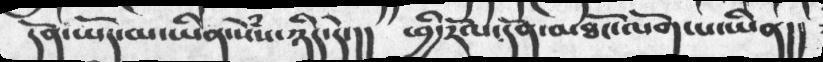དོན་ཡོད་མ་ཡིན་སེྃས་ཉིད་དེ་།།    ཕྱི་རོལ་དོན་མཐོང་ལོག་པ་ཡིན།།
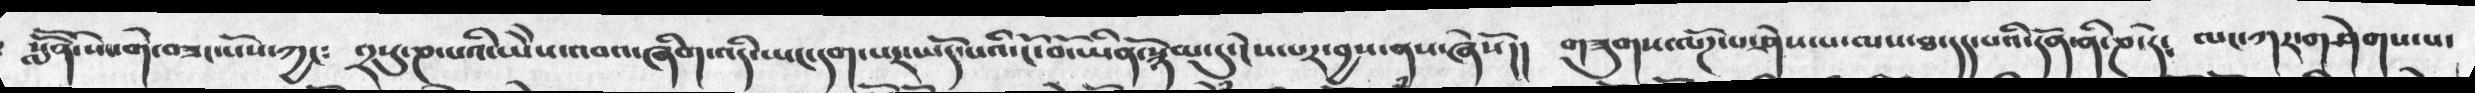སློོན་སེང་གེ་བཟང་པོས་ཀྱང༴   ༢་སུ་ཎ་པའི་ཡེེས་འབའ་ཞིག་འདི་ཡང་དག་པར་ཡོད་པའི་ངོ་བོ་ཡིན་སྙོམ་དུ་ངེས་པར་བྱས་ནས་ཞེསོ།།   གཟུགས་ལོཌ་པ་ཤེས་པ་ལས་ཐ་དད་པའི་དོན་ནི་ཎ་དེ༴   ལང་ཀར་གཤེགས་པ་
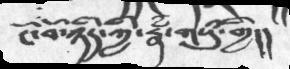ངོ་བོ་ཉིད་ཀྱི་རྣཾ་གསུཾ་གྱི།།
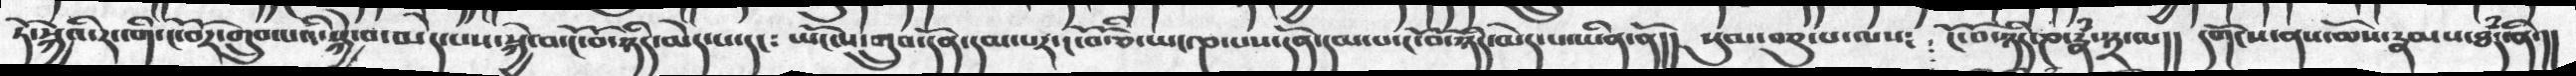ཏེ་སྐྱེའི་རང་གི་ངོ་བོར་གྲུབ་པའི་སྐྱེ་བ་མེད་པས་སྐྱེ་བ་ངོ་བོ་ཉིད་མེད་པ་དང༴   ཡོངས་གྲུབ་དོན་དམ་པར་ངོ་བོ་ཅི་ཡང་ཎ་པས་དོན་དམ་པ་ངོ་བོ་ཉིད་མེད་པ་ཡིན་ནོ།།  སུམ་བཅུ་པ་ལས༴   ངོ་བོ་ཉིད་ཎ་རྣཾ་༣་ལ།།  དགོངས་ནས་ཆོས་རྣམས་ཐཾད་ནི་།།
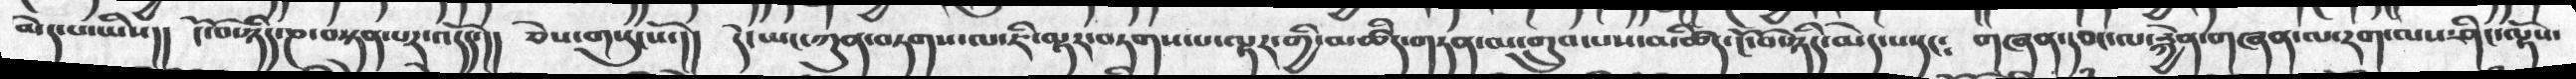མེད་པ་ཡིས།།   ངོ་བོ་ཉིད་ཎ་བསྟན་པར་འདོད་།།  ཅེས་གསུངསོ་།།  དེ་ཡང་ཀུན་བཏགས་ལ་ཇི་ལྟར་བཏགས་པ་ལྟར་གྱི་མཚིད་གཏན་མ་གྲུབ་པས་མཚིད་ངོ་བོ་ཉིད་མེད་པ་དང༴   གཞན་དབང་་རྐྱེན་གཞན་ལ་རག་ལས་ཤིང་ལྟོས་
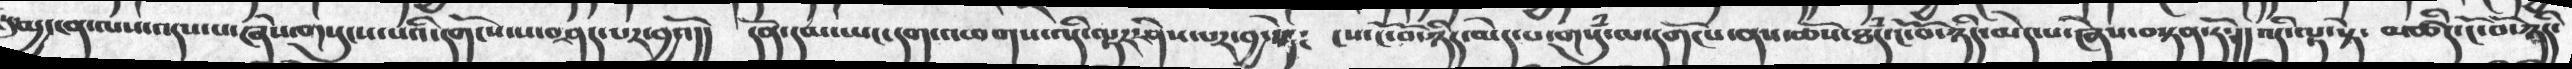མྱ་ངན་ལས་འདས་པ་ཞེས་གསུངས་པའི་དགོངས་པ་བཤད་པར་བྱའོ།།   དོན་དམ་ཡང་དག་འཕགས་འདི་ལྟར་ཤེས་པར་བྱ་སྟེ༴   ངས་ངོ་བོ་ཉིད་མེད་པ་གསུཾ་ལ་དགོངས་ནས་ཆོས་ཐཾད་ངོ་བོ་ཉིད་མེད་པ་ཞེས་བསྟན་ཏོ་།།   མཚིད་ངོ་བོ་ཉིད་
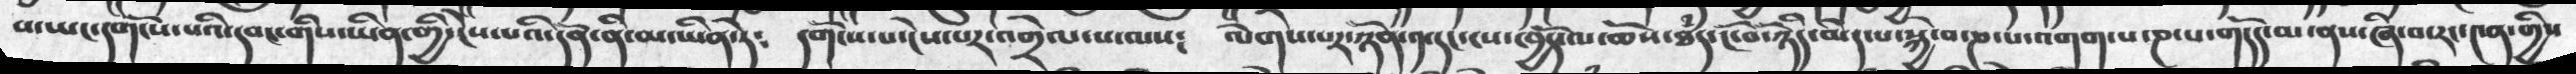པ་ཡང་དགོངས་པའི་དབང་གིས་ཡིན་གྱི་ངེས་པའི་དོན་ནི་མ་ཡིན་ཏེ༴   དགོངས་པ་ངེད་པར་འགྲེལ་པ་ལས༴   ལེགས་པར་ཉོན་༡་དང་ངས་ཁྱོད་ལ་ཆོས་ཐཾད་ངོ་བོ་ཉིད་མེད་པ་སྐྱེ་བ་ཎ་པ་འགག་པ་ཎ་པ་གདོད་མ་ནས་ཞི་བ་རང་༤ན་གྱིས
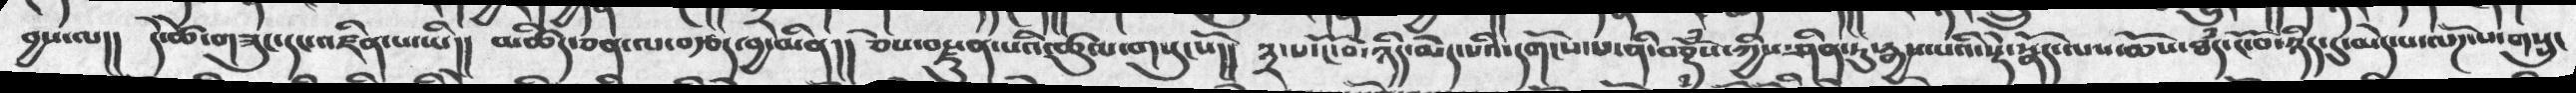བྱས་ལ།།  དེ་ཚོ་གཟུང་དང་འཛིན་པ་ཡི།།  མཚིད་ཅན་ལ་བརྩད་བྱེ་མིན།།  ཅེས་བསྫུན་པའི་ཚུལ་གསུངསོ།།   ༣་པ་ངོ་བོ་ཉིད་མེད་པའི་དགོངས་པ་ནི་བཅྡོཾས་ཀྱིས་ཤིན་ཏུ་རྒྱས་པའི་སྡེ་སྣོད་ལས་ཆོས་ཐཾད་ངོ་བོ་ཉིད་དུ་མེད་པ་ལོཌ་པ་གསུངས
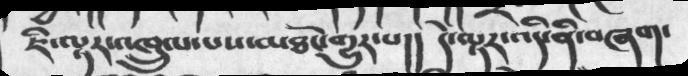ཇི་ལྟར་འཁྲུལ་པས་མཐོང་གྱུར་པ།།   དེ་ལྟར་འདི་ནི་བཞག་
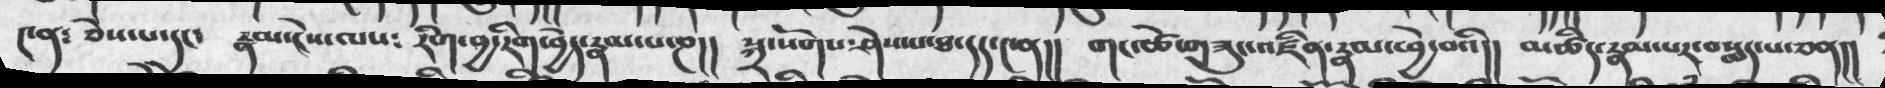༤ན༴ ཅེས་པ་དང་  རྣམ་ངེས་ལས༴ རིག་བྱ་རིག་བྱེད་རྣམ་པ་ཎ།།  སྐྲ་སོགས་ཤེས་པ་ཐ་དད་༤ན།།  གང་ཚེ་གཟུང་འཛིན་རྣམ་ཕྱེ་བའི།།  མཚིད་རྣམ་པར་བསླད་པ་ཅན།།
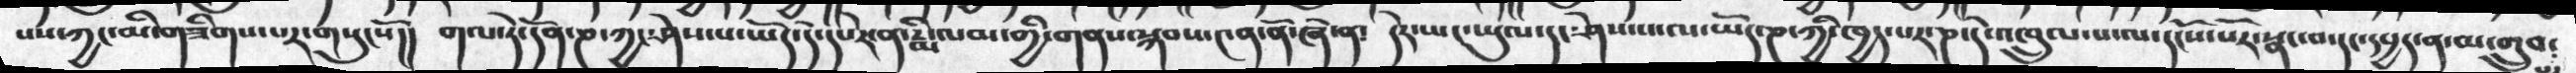པས་ཀྱང་མི་གཟིགས་པར་གསུངསོ།།  གལ་ཏེ་དོན་ཎ་ཀྱང་ཤེས་པ་ཡོད་དེ་དཔེར་ན་རྨི་ལམ་གྱི་གནས་སྐབས་༤ན་ནོ་ཞེ་ན༴  དེར་ཡང་ཡུལ་དང་ཤེས་པ་ལ་ཡོད་ཎ་ཀྱི་ཁྱད་པར་ཎ་དེ་འཁྲུལ་པ་ལ་དངོས་པོར་སྣང་བ་དང་དཔྱད་ན་མ་གྲུབ༴
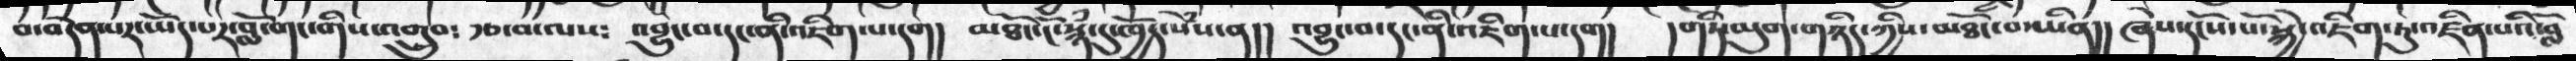བ་བདེན་པར་ཡོད་པར་བློ་གང་གིས་འགྲུབ༴ རྩ་བ་ལས༴ འབྱུང་བ་དང་ནི་འཇིག་པ་དག། མཐོང་ངོ་སྙཾ་དུ་ཁྱོད་སེཾས་ན།། འབྱུང་བ་དང་ན་ིའཇིག་པ་དག། །གཏི་མུག་གཉིད་ཀྱིས་མཐོང་བ་ཡིན།། ཞེས་དངོས་པོ་སྐྱེ་འཇིག་ཏུ་འཛིན་པའི་བློ
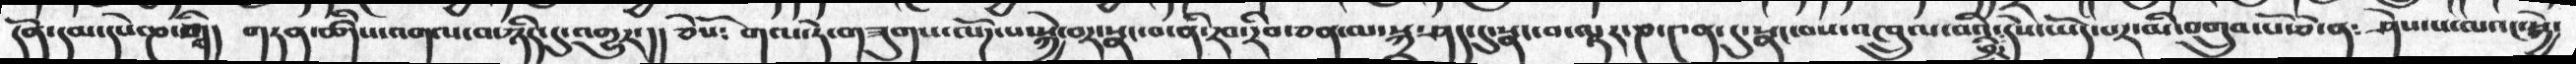དོན་དམ་དཔེ་ཎ་གི།  གཏན་ཆིགས་འགལ་བ་ཉིད་དུ་འགྱུར་།།   ཅེསོ༴  གལ་ཏེ་གཟུགས་ལོཌ་པ་སྐྱེ་བར་སྣང་བ་ནི་རབ་རིབ་ཅན་མ་སྐྲ་ཤད་དུ་སྣབ་བ་ལྟར་ཎ་༤ན་དུ་སྣང་བས་འཁྲུལ་བའི་ཕྱིར་དེས་ཡོད་པར་མི་འགྲུབ་པོ་ཅེ་ན༴  ཤེས་པ་ལའང་སྐྱེ་
